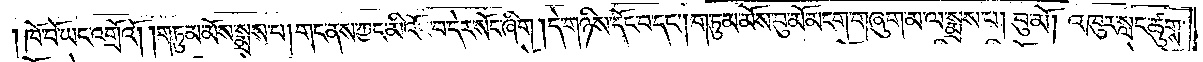ཁོ་བོ་ཡང་འགྲོའོ། །གཏུམ་མོས་སྨྲས་པ། གང་ནས་ཀྱང་མི་འོང་བ་དེར་སོང་ཞིག །དེ་གཉིས་དོང་བ་དང༌། གཏུམ་མོས་བུ་མོ་མངག་གཞུག་མ་ལ་སྨྲས་པ། བུ་མོ། འཁུར་སླང་ཚུགས་
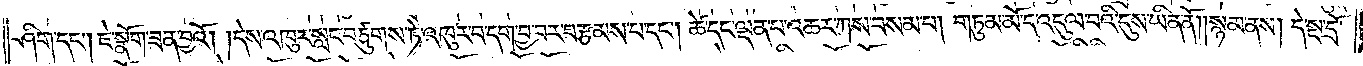ཤིག་དང༌། ཇེ་སྣོག་ཟན་བྱའོ། །དེས་འཁུར་སླང་བཙུགས་ཏེ་འཁུར་བ་དག་བྱ་བར་བརྩམས་པ་དང༌། ཚེ་དང་ལྡན་པ་འཆར་ཀས་བསམ་པ། གཏུམ་མོ་ད་འདུལ་བའི་དུས་ཡིན་ནོ། །སྙམ་ནས། དེ་སྔ་དྲོ་
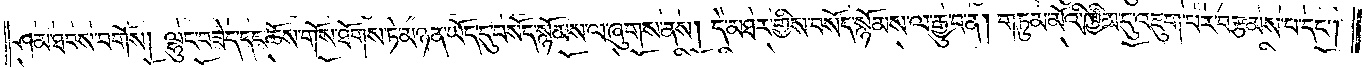ཤམ་ཐབས་བགོས། ལྷུང་བཟེད་དང་ཆོས་གོས་ཐོགས་ཏེ་མཉན་ཡོད་དུ་བསོད་སྙོམས་ལ་ཞུགས་ནས། དེ་མཐར་གྱིས་བསོད་སྙོམས་ལ་རྒྱུ་བ་ན། གཏུམ་མོའི་ཁྱིམ་དུ་འཇུག་པར་བརྩམས་པ་དང༌།
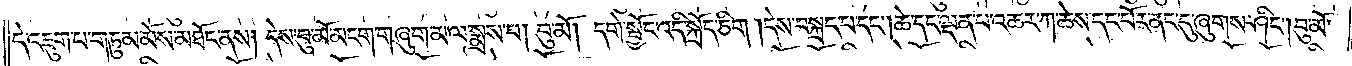དེ་འཇུག་པ་གཏུམ་མོས་མཐོང་ནས། དེས་བུ་མོ་མངག་གཞུག་མ་ལ་སྨྲས་པ། བུ་མོ། དགེ་སློང་འདི་སྐྲོད་ཅིག །དེས་བསྐྲད་པ་དང༌། ཚེ་དང་ལྡན་པ་འཆར་ཀ་ཚེས་དང་པོར་ནང་དུ་ཞུགས་ཤིང༌། བུ་མོ་
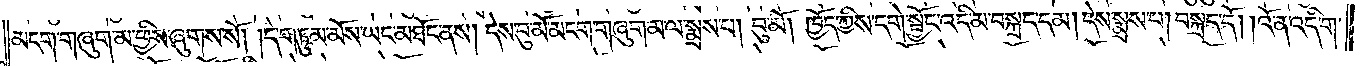མངག་གཞུག་མ་ཕྱིས་ཞུགས་སོ། །དེ་གཏུམ་མོས་ཡང་མཐོང་ནས། དེས་བུ་མོ་མངག་གཞུག་མ་ལ་སྨྲས་པ། བུ་མོ། ཁྱོད་ཀྱིས་དགེ་སྦྱོང་འདི་མ་བསྐྲད་དམ། དེས་སྨྲས་པ། བསྐྲད་དོ། །འོ་ན་འདི་ག་
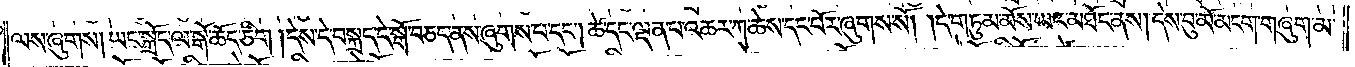ལས་ཞུགས། ཡང་སྐྲོད་ལ་སྒོ་ཆོད་ཅིག །དེས་དེ་བསྐྲད་དེ་སྒོ་བཅད་ནས་ཞུགས་པ་དང༌། ཚེ་དང་ལྡན་པ་འཆར་ཀ་ཆེས་དང་པོར་ཞུགས་སོ། །དེ་གཏུམ་མོས་ཡང་མཐོང་ནས། དེས་བུ་མོ་མངག་གཞུག་མ་
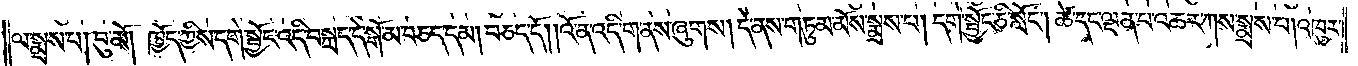ལ་སྨྲས་པ། བུ་མོ། ཁྱོད་ཀྱིས་དགེ་སྦྱོང་འདི་བསྐྲད་དེ་སྒོ་མ་བཅད་དམ། བཅད་དོ། །འོ་ན་འདི་ག་ནས་ཞུགས། དེ་ནས་གཏུམ་མོས་སྨྲས་པ། དགེ་སྦྱོང་ཅི་སློང༌། ཚེ་དང་ལྡན་པ་འཆར་ཀས་སྨྲས་པ། འཁུར་
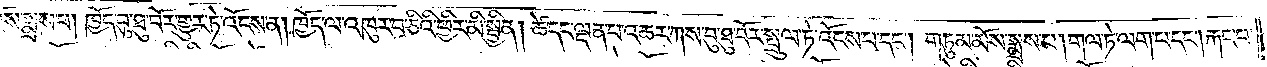ས་སྨྲས་པ། ཁྱོད་བུ་ཐུ་བོར་གྱུར་ཏེ་འོངས་ན། ཁྱོད་ལ་འཁུར་བ་ཅིའི་ཕྱིར་མི་སྦྱིན། ཚེ་དང་ལྡན་པ་འཆར་ཀས་བུ་ཐུ་བོར་སྤྲུལ་ཏེ་འོངས་པ་དང༌། གཏུམ་མོས་སྨྲས་པ། གལ་ཏེ་ལག་པ་དང༌། རྐང་པ་
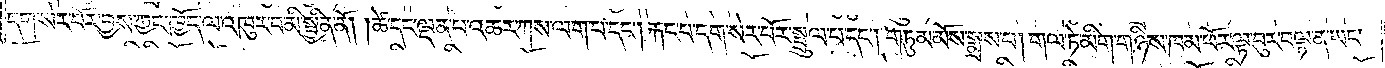དག་སེར་པོར་བྱས་ཀྱང་ཁྱོད་ལ་འཁུར་བ་མི་སྦྱིན་ནོ། །ཚེ་དང་ལྡན་པ་འཆར་ཀས་ལག་པ་དང༌། རྐང་པ་དག་སེར་པོར་སྤྲུལ་པ་དང༌། གཏུམ་མོས་སྨྲས་པ། གལ་ཏེ་མིག་གཉིས་ཁམ་ཕོར་ལྟ་བུར་བལྟ་ན་ཡང་
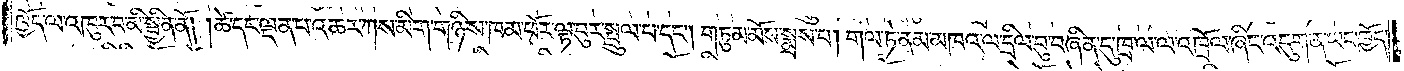ཁྱོད་ལ་འཁུར་བ་མི་སྦྱིན་ནོ། །ཚེ་དང་ལྡན་པ་འཆར་ཀས་མིག་གཉིས་ཁམ་ཕོར་ལྟ་བུར་སྤྲུལ་པ་དང༌། གཏུམ་མོས་སྨྲས་པ། གལ་ཏེ་ནམ་མཁའ་ལ་དྲིལ་བུ་བཞིན་དུ་ཁྲལ་ལ་འཁྲོལ་ཞིང་འདུག་ན་ཡང་ཁྱོད་
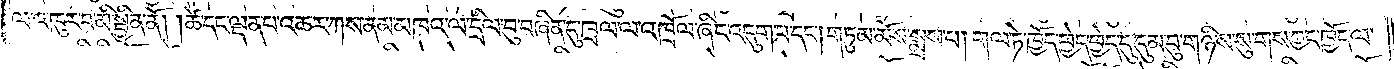ལ་འཁུར་བ་མི་སྦྱིན་ནོ། །ཚེ་དང་ལྡན་པ་འཆར་ཀས་ནམ་མཁའ་ལ་དྲིལ་བུ་བཞིན་དུ་ཁྲལ་ལ་འཁྲོལ་ཞིང་འདུག་པ་དང༌། གཏུམ་མོས་སྨྲས་པ། གལ་ཏེ་ཁྱོད་ཕྱེད་ཕྱེད་དུ་དུམ་བུ་གཉིས་སུ་གས་ཀྱང་ཁྱོད་ལ་
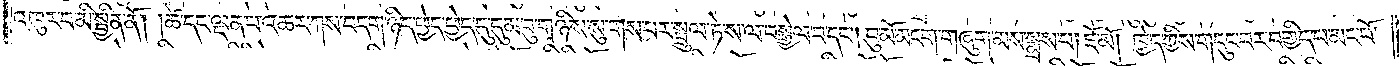འཁུར་བ་མི་སྦྱིན་ནོ། །ཚེ་དང་ལྡན་པ་འཆར་ཀས་བདག་ཉིད་ཕྱེད་ཕྱེད་དུ་དུམ་བུ་གཉིས་སུ་གས་པར་སྤྲུལ་ཏེ་ས་ལ་བསྒྱེལ་བ་དང༌། བུ་མོ་མངག་གཞུག་མས་སྨྲས་པ། ཇོ་མོ། ཁྱེད་ཀྱིས་གདུང་བར་བགྱིད་པ་མང་པོ་
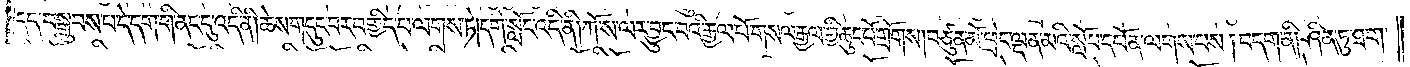དད་བསྒྲུབས་པ་དེ་དག་གི་ནང་དུ་འདི་ནི། ཆེས་གདུང་བར་བགྱིད་པ་ལགས་ཏེ། དགེ་སློང་འདི་ནི། ཀོ་ས་ལར་བྱུང་བའི་རྒྱལ་པོ་གསལ་རྒྱལ་གྱི་ཆུང་པོ་གྲོགས། བཙུན་མོ་ཕྲེང་ལྡན་མའི་སློབ་དཔོན་ལགས་པས། བདག་ནི། ཤིན་ཏུ་ཐག་
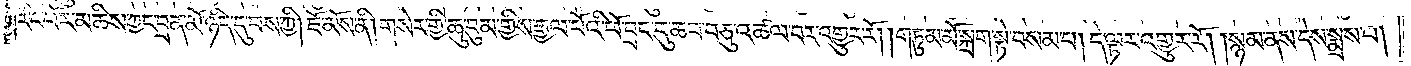རིང་པོར་མཆིས་ཀྱང་བྲན་མོ་ཉིད་དུ་བས་ཀྱི། ཇོ་མོས་ནི། གསེར་གྱི་ཆུ་བུམ་གྱིས་རྒྱལ་པོའི་ཕོ་བྲང་དུ་ཆབ་བཅུ་འཚམ་པར་འགྱུར་རོ། །གཏུམ་མོ་སྐྲག་སྟེ་བསམ་པ། དེ་ལྟར་འགྱུར་རོ། །སྙམ་ནས་དེས་སྨྲས་པ།
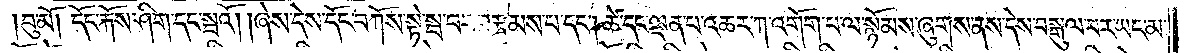བུ་མོ། དོང་རྐོས་ཤིག་དང་སྦའོ། །ཞེས་དེས་དོང་བཀོས་སྟེ་སྦ་བར་བརྩམས་པ་དང༌། ཚེ་དང་ལྡན་པ་འཆར་ཀ་འགོག་པ་ལ་སྙོམས་ཞུགས་ནས་དེས་བསྒུལ་བར་ཡང་མ་
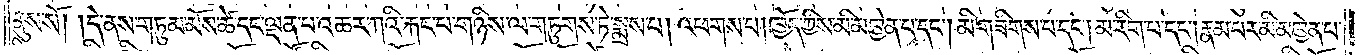ནུས་སོ། །དེ་ནས་གཏུམ་མོས་ཚེ་དང་ལྡན་པ་འཆར་ཀའི་རྐང་པ་གཉིས་ལ་གཏུགས་ཏེ་སྨྲས་པ། འཕགས་པ། ཁྱོད་ཀྱིས་མི་མཁྱེན་པ་དང༌། མི་གཟིགས་པ་དང༌། མ་རིག་པ་དང༌། རྣམ་པར་མི་མཁྱེན་པ་
